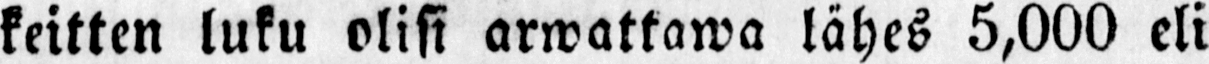keitten luku olisi arwattawa lähes 5,000 eli
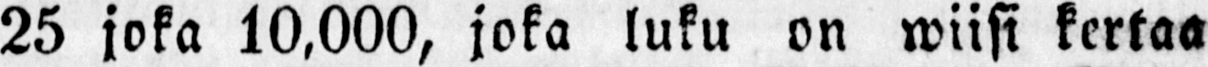25 joka 10,000, joka luku on wiisi kertaa
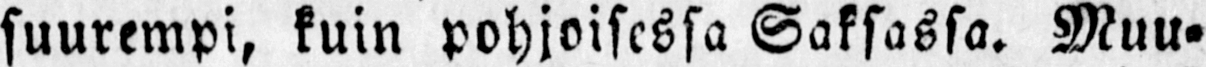suurempi, kuin pohjoisessa Saksassa. Muu-
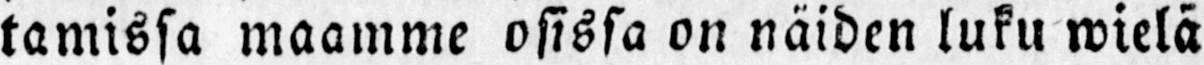tamissa maamme osissa on n ä iden luku wielä
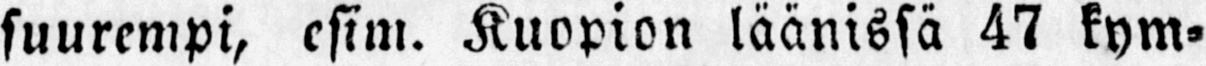suurempi, esim. Kuopion läänissä 47 kym-
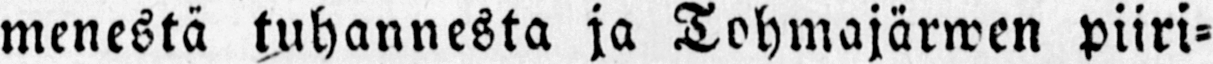menestä tuhannesta ja Tohmajärwen piiri-
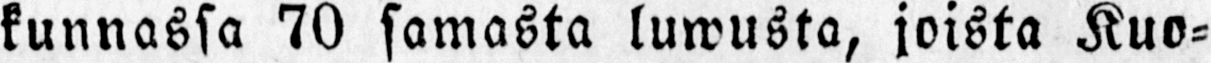kunnassa 70 samasta luwusta, joista Kuo-
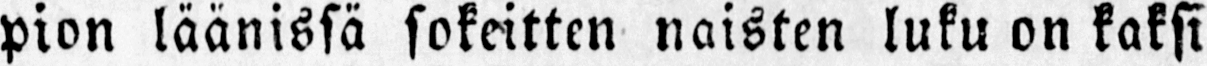pion läänissä sokeitten naisten luku on kaksi
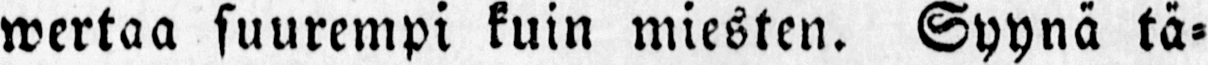wertaa suurempi kuin miesten. Syynä tä-
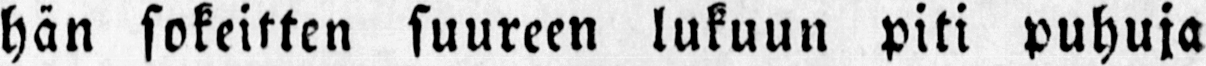hän sokeitten suureen lukuun piti puhuja
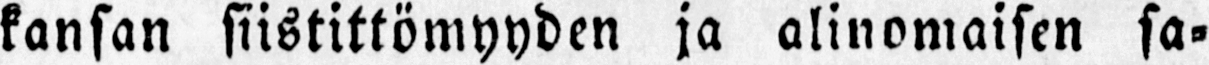kansan siistittömyyden ja alinomaisen sa-
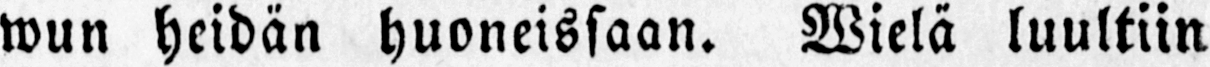wun heidän huoneissaan. Wielä luultiin
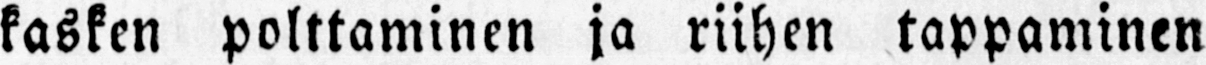kasken polttaminen ja riihen tappaminen
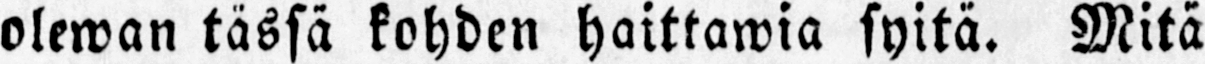olewan tässä kohden haittawia syitä. Mitä
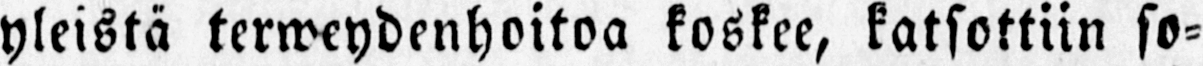yleistä terweydenhoitoa koskee, katsottiin so-
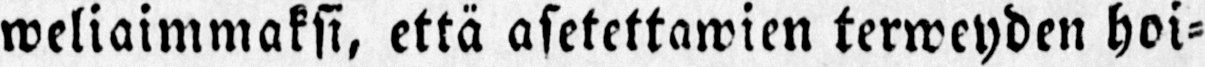weliaimmaksi, että asetettawien terweyden hoi-
